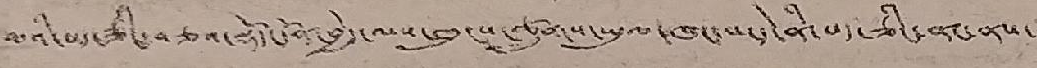མའི་པད་ཅིང་བཅའ་སྡོད་དོན་བྱེད་ལས་ཁུངས་ཚུགས་ཡུལ་ཁང་པ་དེ་ནི་པད་ཅིང་ནང་ནས་
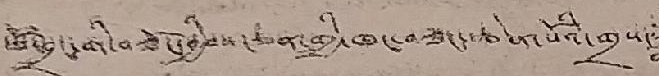ཕོ་བྲང་གི་བཟོ་དབྱིབས་ཅན་གྱི་ཁང་བཟང་ཆེན་པོའི་གྲས་
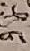ག
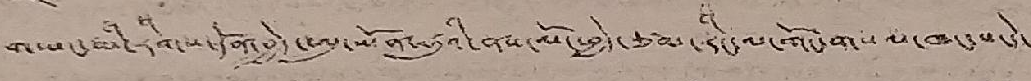གཡང་མི་རིགས་དོན་བྱེད་ཨུ་ཡོན་ཧུའི་ནས་ལོ་བྱེད་ཙམ་རིང་ལ་གོང་གསལ་ཁང་པ་དེ་
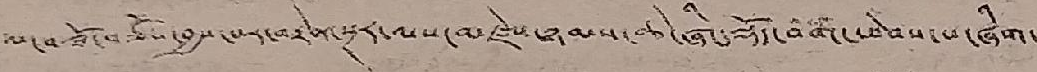ལང་བཟོ་བཅས་བྱས་པར་བརྟེན་སྔར་ལས་མཛེས་ཉམས་ཆེ་ཞིང་སྡོད་བག་ཕེབས་པ་ཞིག་
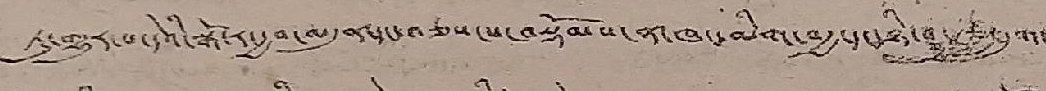ཏུ་གྱུར་པ་དེའི་སྒོ་ར་རྒྱབ་མདུན་དང་བཅས་པ་བསྡོམས་ན་ཁང་མིག་བརྒྱ་དང་ཉི་ཤུ་རྩ་དྲུག་
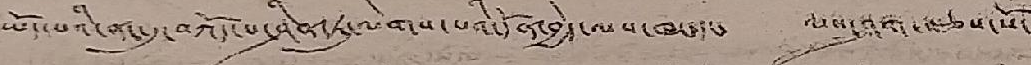ཡོད་པའི་ནང་དུ་བཀོད་པ་ཤིན་ཏུ་ལེགས་པའི་དོན་བྱེད་ལས་ཁང་དང་ ལས་ཤག་བཅས་སོ་
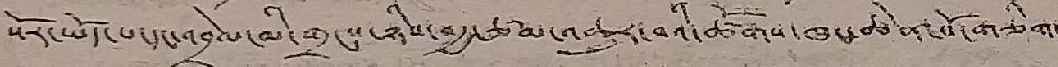སོར་ཡོད་པ་དང་འབྲེལ་མི་གྲངས་ཉིས་བརྒྱ་ཙམ་འཆུར་བའི་ཚོགས་ཁང་ཆེན་པོ་གཅིག་
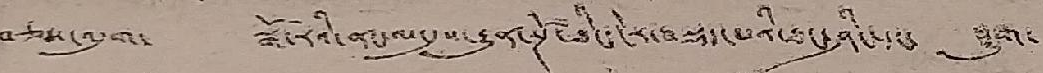བཅས་འདུག་ སྒོ་རའི་ནང་ལ་དུས་རྒྱུན་སྔོ་ཐིང་ངེར་བསྡད་པའི་ཐང་ཤིང་དང་ ཤུག་
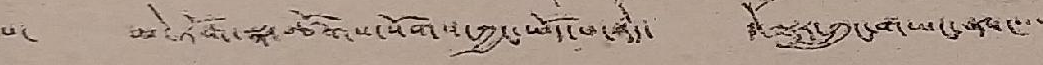པ་ མེ་ཏོག་སྣ་ཚོགས་སོགས་ཀྱང་ཡོད་པ་རེད་ དེ་ལྟར་ཀྲུང་གཡང་ནས་་་་་
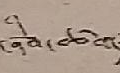ཞིབ་ཚག
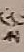ས
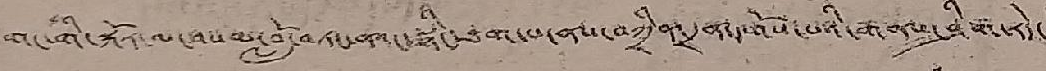གང་གི་སྐོར་ལ་བསམ་བློ་བཏང་ནའང་སྙིང་ཐག་པ་ནས་བཀྲིན་དྲན་དགོས་པའི་གནས་ཤིག་ྲེད་།
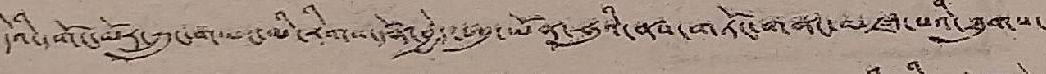དེའི་དགོང་མོར་ཀྲུང་གཡང་མི་རིགས་དོན་བྱེད་ཨུ་ཡོན་ཧུའི་ནས་གཏོང་གནང་མཛད་པའི་ཐུགས་
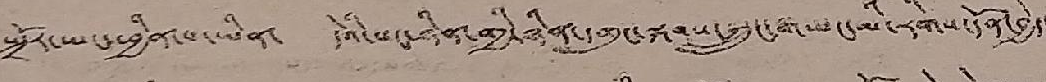སྤྲོར་ཡང་ཕྱིན་པ་ཡིན་ དེའི་སང་ཉིན་གྱི་ཉིན་དགུང་སྐབས་ཀྲུང་གཡང་མི་རིགས་དོན་བྱེད་
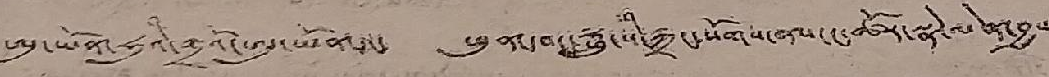ཨུ་ཡོན་ཧུའི་གྲའོ་ཨུ་ཡོན་དང་ ཕུན་དབང་ཧྥུ་སི་ཀྲང་སོགས་ནས་ང་ཚོར་སྣེ་ལེན་བྱས་
